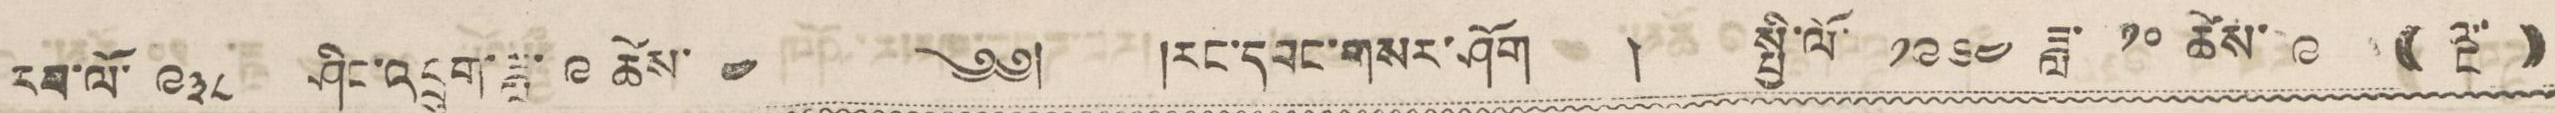རབ་ལོ་ ༩༣༨ ཤིང་འབྲུག་ཟླ་ ༩ ཚེས་ ༤ ༄༅། །རང་དབང་གསར་ཤོག ། སྤྱི་ལོ་ ༡༩༦༤ ཟླ་ ༡༠ ཚེས་ ༩ (( ལྔ་ ))
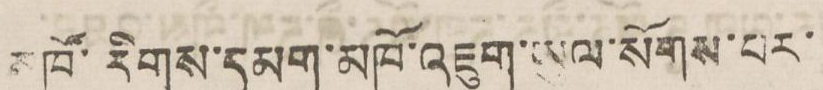མཁོ་རིགས་དམག་མཁོ་འཇུག་ཡུལ་སོགས་པར་
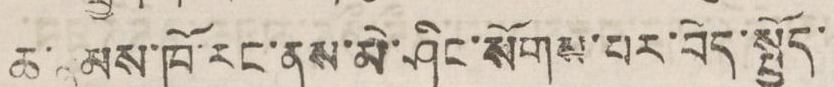ཆ་རྣམས་ཁོ་རང་ནས་མི་ཤིང་སོགས་པར་བེད་སྤྱོད་
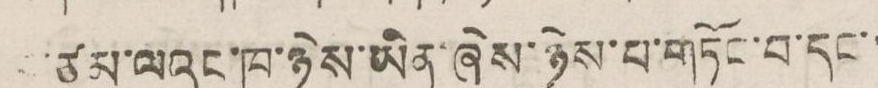བ་ཙམ་ལའང་ཁ་ཉེས་ཡིན་ཞེས་ཉེས་པ་གཏོང་པ་དང་
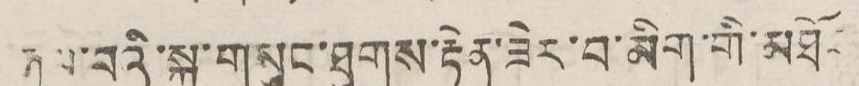རྒྱལ་བའི་སྐུ་གསུང་ཐུགས་རྟེན་ཟེར་བ་མིག་གི་མཐོང
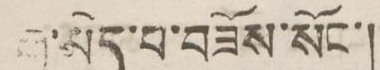རྒྱུ་མེད་པ་བཟོས་སོང་།
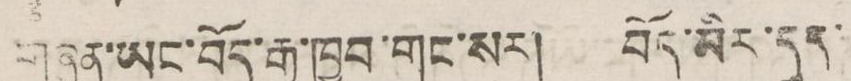གཞན་ཡང་བོད་རྒྱ་ཁབ་གང་སར། བོད་མིར་དུད་
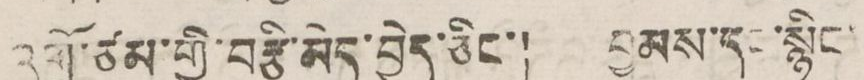འགྲོ་ཙམ་གྱི་བརྩི་མེད་བྱེད་ཅིང་། བྱམས་དང་སྙིང་
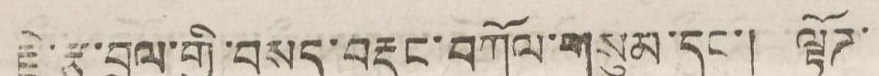རྗེ་རྩ་བྲལ་གྱི་བསད་བརྡུང་བཀོལ་གསུམ་དང་། ལྟོཊ་
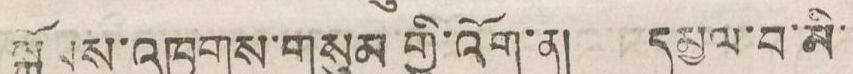སྐོམས་འཁྱགས་གསུམ གྱི་འོག་ན། དམྱལ་བ་མི་
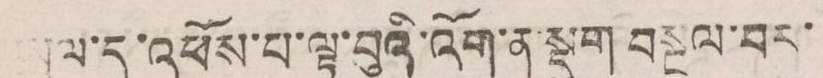ཡུལ་དུ་འཕོས་པ་ལྟ་བུའི་འོག་ན་སྡུག བསྔལ་བར་
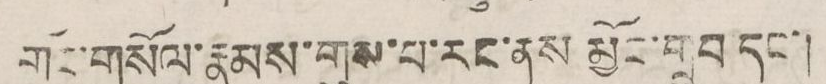གོང་གསོལ་རྣམས་གུས་པ་རང་ནས མྱོང་གྲུབ དང་།
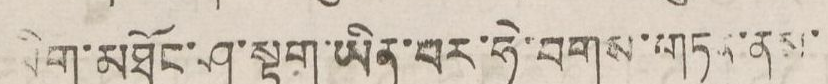མིག་མཐོང་ཤ་སྟག་ཡིན་པར་ཧེ་བགས་གཏན་ནས་
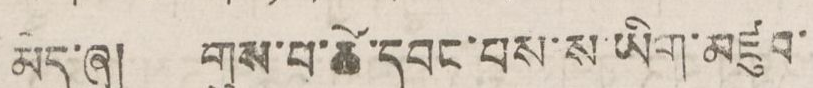མེད་ཞུ། གུས་པ་ཚེ་དབང་པས་ས་ཡིག་མཛུབ་
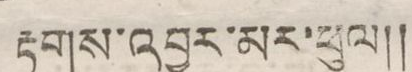རྟགས་འབྱར་མར་ཕུལ།།
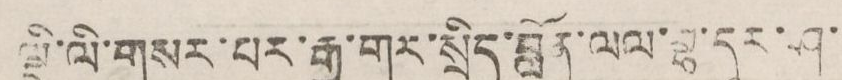ལྡི་ལི་གསར་པར་རྒྱ་གར་སྲིད་བློན་ལལ་བྷ་དུར་ཤ་
